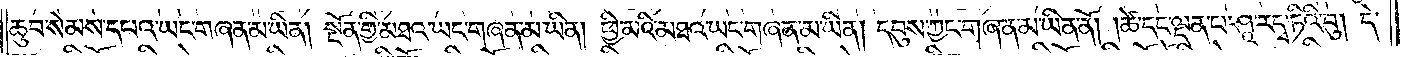ཆུབ་སེམས་དཔའ་ཡང་གཞན་མ་ཡིན། སྔོན་གྱི་མཐའ་ཡང་གཞན་མ་ཡིན། ཕྱི་མའི་མཐའ་ཡང་གཞན་མ་ཡིན། དབུས་ཀྱང་གཞན་མ་ཡིན་ནོ། །ཚེ་དང་ལྡན་པ་ཤཱ་ར་དྭ་ཏིའི་བུ། དེ་
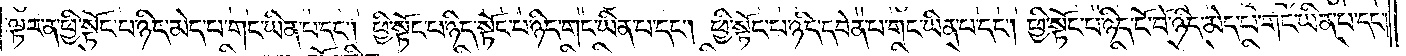ལྟར་ན་ཕྱི་སྟོང་པ་ཉིད་མེད་པ་གང་ཡིན་པ་དང༌། ཕྱི་སྟོང་པ་ཉིད་སྟོང་པ་ཉིད་གང་ཡིན་པ་དང༌། ཕྱི་སྟོང་པ་ཉིད་དབེན་པ་གང་ཡིན་པ་དང༌། ཕྱི་སྟོང་པ་ཉིད་ངོ་བོ་ཉིད་མེད་པ་གང་ཡིན་པ་དང༌།
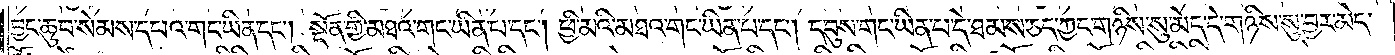བྱང་ཆུབ་སེམས་དཔའ་གང་ཡིན་པ་དང༌། སྔོན་གྱི་མཐའ་གང་ཡིན་པ་དང༌། ཕྱི་མའི་མཐའ་གང་ཡིན་པ་དང༌། དབུས་གང་ཡིན་པ་དེ་ཐམས་ཅད་ཀྱང་གཉིས་སུ་མེད་དེ་གཉིས་སུ་བྱར་མེད་
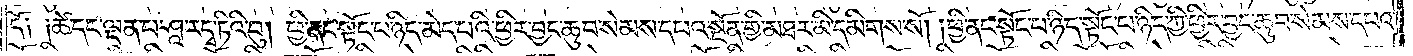དོ༑ ༑ཚེ་དང་ལྡན་པ་ཤཱ་ར་དྭ་ཏིའི་བུ། ཕྱི་ནང་སྟོང་པ་ཉིད་མེད་པའི་ཕྱིར་བྱང་ཆུབ་སེམས་དཔའ་སྔོན་གྱི་མཐར་མི་དམིགས་སོ། །ཕྱི་ནང་སྟོང་པ་ཉིད་སྟོང་པ་ཉིད་ཀྱི་ཕྱིར་བྱང་ཆུབ་སེམས་དཔའ་
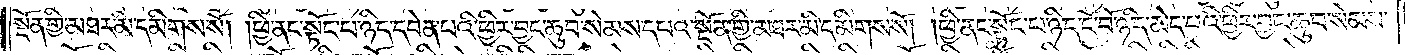སྔོན་གྱི་མཐར་མི་དམིགས་སོ། །ཕྱི་ནང་སྟོང་པ་ཉིད་དབེན་པའི་ཕྱིར་བྱང་ཆུབ་སེམས་དཔའ་སྔོན་གྱི་མཐར་མི་དམིགས་སོ། །ཕྱི་ནང་སྟོང་པ་ཉིད་ངོ་བོ་ཉིད་མེད་པའི་ཕྱིར་བྱང་ཆུབ་སེམས་
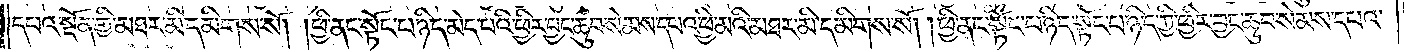དཔའ་སྔོན་གྱི་མཐར་མི་དམིགས་སོ། །ཕྱི་ནང་སྟོང་པ་ཉིད་མེད་པའི་ཕྱིར་བྱང་ཆུབ་སེམས་དཔའ་ཕྱི་མའི་མཐར་མི་དམིགས་སོ། །ཕྱི་ནང་སྟོང་པ་ཉིད་སྟོང་པ་ཉིད་ཀྱི་ཕྱིར་བྱང་ཆུབ་སེམས་དཔའ་
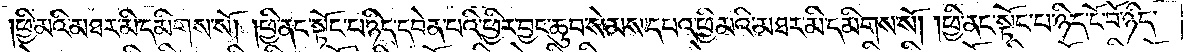ཕྱི་མའི་མཐར་མི་དམིགས་སོ། །ཕྱི་ནང་སྟོང་པ་ཉིད་དབེན་པའི་ཕྱིར་བྱང་ཆུབ་སེམས་དཔའ་ཕྱི་མའི་མཐར་མི་དམིགས་སོ། །ཕྱི་ནང་སྟོང་པ་ཉིད་ངོ་བོ་ཉིད་
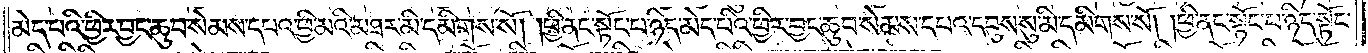མེད་པའི་ཕྱིར་བྱང་ཆུབ་སེམས་དཔའ་ཕྱི་མའི་མཐར་མི་དམིགས་སོ། །ཕྱི་ནང་སྟོང་པ་ཉིད་མེད་པའི་ཕྱིར་བྱང་ཆུབ་སེམས་དཔའ་དབུས་སུ་མི་དམིགས་སོ། །ཕྱི་ནང་སྟོང་པ་ཉིད་སྟོང་
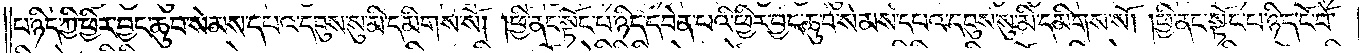པ་ཉིད་ཀྱི་ཕྱིར་བྱང་ཆུབ་སེམས་དཔའ་དབུས་སུ་མི་དམིགས་སོ། །ཕྱི་ནང་སྟོང་པ་ཉིད་དབེན་པའི་ཕྱིར་བྱང་ཆུབ་སེམས་དཔའ་དབུས་སུ་མི་དམིགས་སོ། །ཕྱི་ནང་སྟོང་པ་ཉིད་ངོ་བོ་
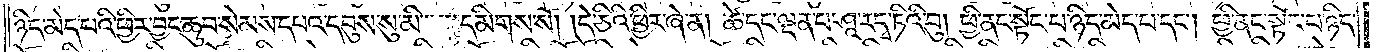ཉིད་མེད་པའི་ཕྱིར་བྱང་ཆུབ་སེམས་དཔའ་དབུས་སུ་མི་དམིགས་སོ། །དེ་ཅིའི་ཕྱིར་ཞེ་ན། ཚེ་དང་ལྡན་པ་ཤཱ་ར་དྭ་ཏིའི་བུ། ཕྱི་ནང་སྟོང་པ་ཉིད་མེད་པ་དང༌། ཕྱི་ནང་སྟོང་པ་ཉིད་
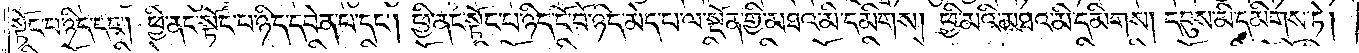སྟོང་པ་ཉིད་དང༌། ཕྱི་ནང་སྟོང་པ་ཉིད་དབེན་པ་དང༌། ཕྱི་ནང་སྟོང་པ་ཉིད་ངོ་བོ་ཉིད་མེད་པ་ལ་སྔོན་གྱི་མཐའ་མི་དམིགས། ཕྱི་མའི་མཐའ་མི་དམིགས། དབུས་མི་དམིགས་ཏེ།
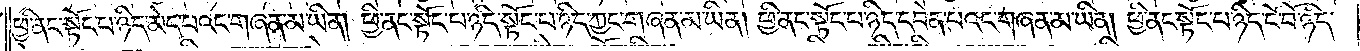ཕྱི་ནང་སྟོང་པ་ཉིད་མེད་པའང་གཞན་མ་ཡིན། ཕྱི་ནང་སྟོང་པ་ཉིད་སྟོང་པ་ཉིད་ཀྱང་གཞན་མ་ཡིན། ཕྱི་ནང་སྟོང་པ་ཉིད་དབེན་པའང་གཞན་མ་ཡིན། ཕྱི་ནང་སྟོང་པ་ཉིད་ངོ་བོ་ཉིད་
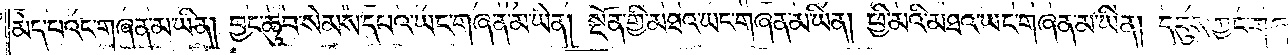མེད་པའང་གཞན་མ་ཡིན། བྱང་ཆུབ་སེམས་དཔའ་ཡང་གཞན་མ་ཡིན། སྔོན་གྱི་མཐའ་ཡང་གཞན་མ་ཡིན། ཕྱི་མའི་མཐའ་ཡང་གཞན་མ་ཡིན། དབུས་ཀྱང་གཞན་མ་
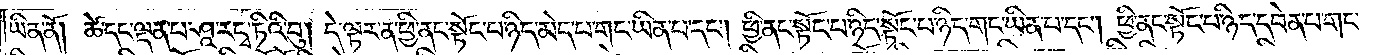ཡིན་ནོ། །ཚེ་དང་ལྡན་པ་ཤཱ་རདྭ་ཏིའི་བུ། དེ་ལྟར་ན་ཕྱི་ནང་སྟོང་པ་ཉིད་མེད་པ་གང་ཡིན་པ་དང༌། ཕྱི་ནང་སྟོང་པ་ཉིད་སྟོང་པ་ཉིད་གང་ཡིན་པ་དང༌། ཕྱི་ནང་སྟོང་པ་ཉིད་དབེན་པ་གང་
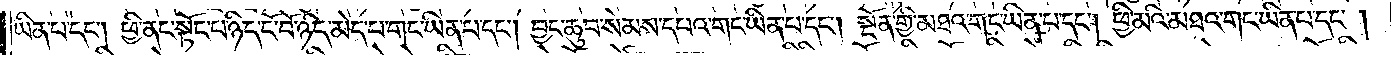ཡིན་པ་དང༌། ཕྱི་ནང་སྟོང་པ་ཉིད་ངོ་བོ་ཉིད་མེད་པ་གང་ཡིན་པ་དང༌། བྱང་ཆུབ་སེམས་དཔའ་གང་ཡིན་པ་དང༌། སྔོན་གྱི་མཐའ་གང་ཡིན་པ་དང༌། ཕྱི་མའི་མཐའ་གང་ཡིན་པ་དང༌།
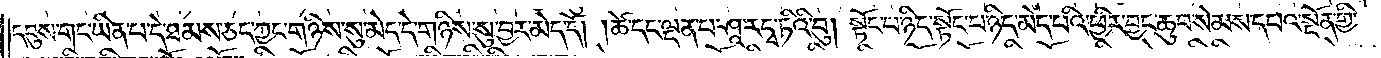དབུས་གང་ཡིན་པ་དེ་ཐམས་ཅད་ཀྱང་གཉིས་སུ་མེད་དེ་གཉིས་སུ་བྱར་མེད་དོ། །ཚེ་དང་ལྡན་པ་ཤཱ་རདྭ་ཏིའི་བུ། སྟོང་པ་ཉིད་སྟོང་པ་ཉིད་མེད་པའི་ཕྱིར་བྱང་ཆུབ་སེམས་དཔའ་སྔོན་གྱི་
